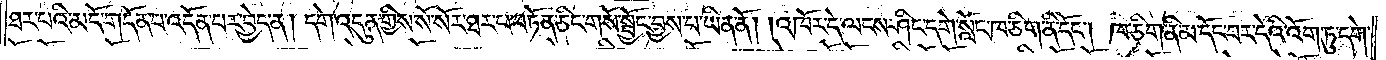ཐར་པའི་མདོ་གདོན་པ་འདོན་པར་བྱེད་ན། དགེ་འདུན་གྱིས་སོ་སོར་ཐར་པ་བཏོན་ཅིང་གསོ་སྦྱོང་བྱས་པ་ཡིན་ནོ། །འཁོར་དེ་ལངས་ཤིང་དགེ་སློང་ཁ་ཅིག་ནི་དོང༌། ཁ་ཅིག་ནི་མ་དོང་བར་དེའི་འོག་ཏུ་དགེ་
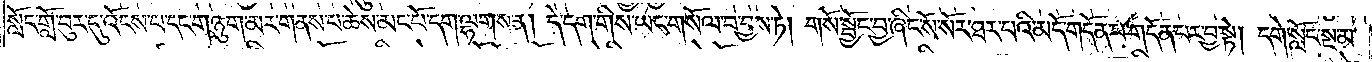སློང་གློ་བུར་དུ་འོངས་པ་དང་གཉུག་མར་གནས་པ་ཆེས་མང་པོ་དག་ལྷགས་ན། དེ་དག་གིས་ཡང་གསོལ་བ་བྱས་ཏེ། གསོ་སྦྱོང་བྱ་ཞིང་སོ་སོར་ཐར་པའི་མདོ་གདོན་པ་གདོན་པར་བྱ་སྟེ། དགེ་སློང་སྔ་མ་
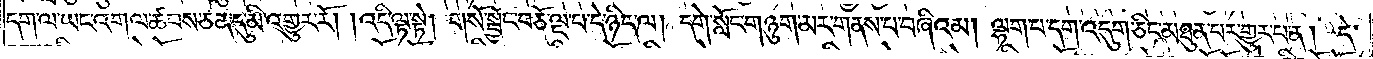དག་ལ་ཡང་འགལ་ཚབས་ཅན་དུ་མི་འགྱུར་རོ། །འདི་ལྟ་སྟེ། གསོ་སྦྱོང་བཅོ་ལྔ་པ་དེ་ཉིད་ལ། དགེ་སློང་གཉུག་མར་གནས་པ་བཞིའམ། ལྷག་པ་དག་འདུག་ཅིང་མཐུན་པར་གྱུར་པ་ན། དེ་
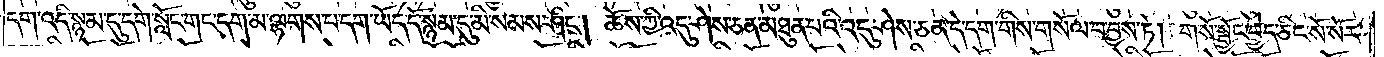དག་འདི་སྙམ་དུ་དགེ་སློང་གང་དག་མ་ལྷགས་པ་དག་ཡོད་དོ་སྙམ་དུ་མི་སེམས་ཤིང༌། ཆོས་ཀྱི་འདུ་ཤེས་ཅན་མཐུན་པའི་འདུ་ཤེས་ཅན་དེ་དག་གིས་གསོལ་བ་བྱས་ཏེ། གསོ་སྦྱོང་བྱེད་ཅིང་སོ་སོར་
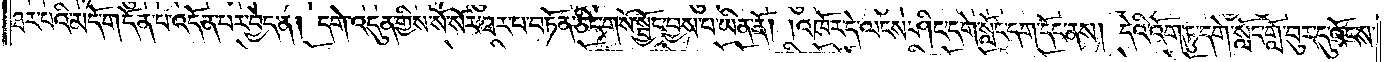ཐར་པའི་མདོ་གདོན་པ་འདོན་པར་བྱེད་ན། དགེ་འདུན་གྱིས་སོ་སོར་ཐར་པ་བཏོན་ཅིང་གསོ་སྦྱོང་བྱས་པ་ཡིན་ནོ། །འཁོར་དེ་ལངས་ཤིང་དགེ་སློང་དག་དོང་ནས། དེའི་འོག་ཏུ་དགེ་སློང་གློ་བུར་དུ་འོངས་
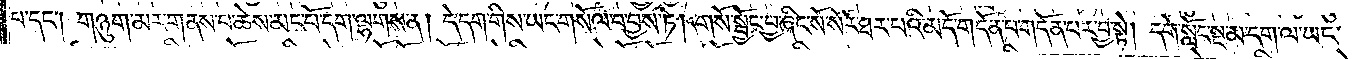པ་དང༌། གཉུག་མར་གནས་པ་ཆེས་མང་པོ་དག་ལྷགས་ན། དེ་དག་གིས་ཡང་གསོལ་བ་བྱས་ཏེ། གསོ་སྦྱོང་བྱ་ཞིང་སོ་སོར་ཐར་པའི་མདོ་གདོན་པ་གདོན་པར་བྱ་སྟེ། དགེ་སློང་སྔ་མ་དག་ལ་ཡང་
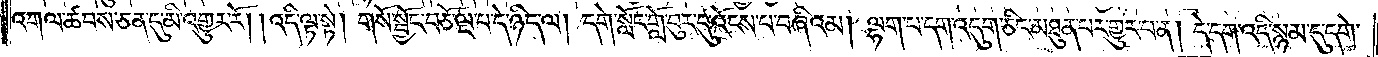འགལ་ཚབས་ཅན་དུ་མི་འགྱུར་རོ། །འདི་ལྟ་སྟེ། གསོ་སྦྱོང་བཅོ་ལྔ་པ་དེ་ཉིད་ལ། དགེ་སློང་གློ་བུར་དུ་འོངས་པ་བཞིའམ། ལྷག་པ་དག་འདུག་ཅིང་མཐུན་པར་གྱུར་པ་ན། དེ་དག་འདི་སྙམ་དུ་དགེ་
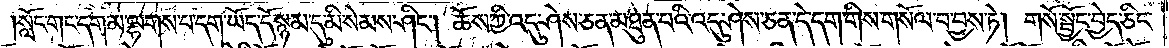སློང་གང་དག་མ་ལྷགས་པ་དག་ཡོད་དོ་སྙམ་དུ་མི་སེམས་ཤིང༌། ཆོས་ཀྱི་འདུ་ཤེས་ཅན་མཐུན་པའི་འདུ་ཤེས་ཅན་དེ་དག་གིས་གསོལ་བ་བྱས་ཏེ། གསོ་སྦྱོང་བྱེད་ཅིང་
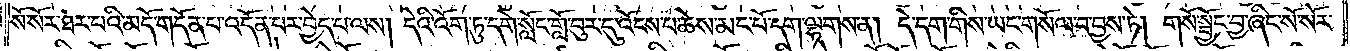སོ་སོར་ཐར་པའི་མདོ་གདོན་པ་འདོན་པར་བྱེད་པ་ལས། དེའི་འོག་ཏུ་དགེ་སློང་གློ་བུར་དུ་འོངས་པ་ཆེས་མང་པོ་དག་ལྷགས་ན། དེ་དག་གིས་ཡང་གསོལ་བ་བྱས་ཏེ། གསོ་སྦྱོང་བྱ་ཞིང་སོ་སོར་
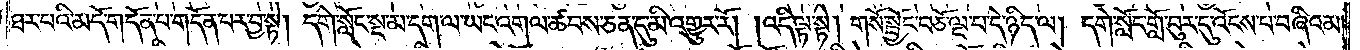ཐར་པའི་མདོ་གདོན་པ་གདོན་པར་བྱ་སྟེ། དགེ་སློང་སྔ་མ་དག་ལ་ཡང་འགལ་ཚབས་ཅན་དུ་མི་འགྱུར་རོ། །འདི་ལྟ་སྟེ། གསོ་སྦྱོང་བཅོ་ལྔ་བ་དེ་ཉིད་ལ། དགེ་སློང་གློ་བུར་དུ་འོངས་པ་བཞིའམ།
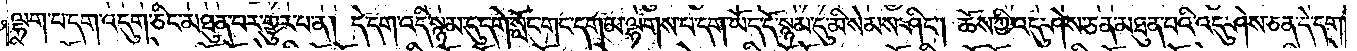ལྷག་པ་དག་འདུག་ཅིང་མཐུན་པར་གྱུར་པ་ན། དེ་དག་འདི་སྙམ་དུ་དགེ་སློང་གང་དག་མ་ལྷགས་པ་དག་ཡོད་དོ་སྙམ་དུ་མི་སེམས་ཤིང༌། ཆོས་ཀྱི་འདུ་ཤེས་ཅན་མཐུན་པའི་འདུ་ཤེས་ཅན་དེ་དག་
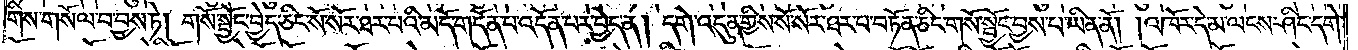གིས་གསོལ་བ་བྱས་ཏེ། གསོ་སྦྱོང་བྱེད་ཅིང་སོ་སོར་ཐར་པའི་མདོ་གདོན་པ་འདོན་པར་བྱེད་ན། དགེ་འདུན་གྱིས་སོ་སོར་ཐར་པ་བཏོན་ཅིང་གསོ་སྦྱོང་བྱས་པ་ཡིན་ནོ། །འཁོར་དེ་མ་ལངས་ཤིང་དགེ་
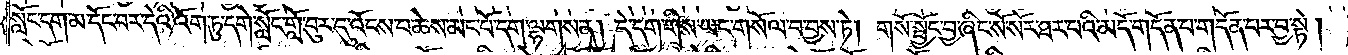སློང་དག་མ་དོང་བར་དེའི་འོག་ཏུ་དགེ་སློང་གློ་བུར་དུ་འོངས་པ་ཆེས་མང་པོ་དག་ལྷགས་ན། དེ་དག་གིས་ཡང་གསོལ་བ་བྱས་ཏེ། གསོ་སྦྱོང་བྱ་ཞིང་སོ་སོར་ཐར་པའི་མདོ་གདོན་པ་གདོན་པར་བྱ་སྟེ།
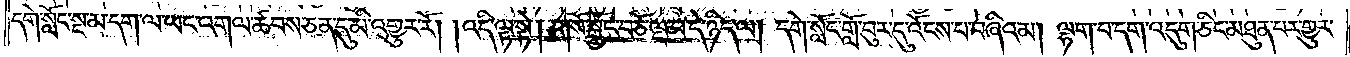དགེ་སློང་སྔ་མ་དག་ལ་ཡང་འགལ་ཚབས་ཅན་དུ་མི་འགྱུར་རོ། །འདི་ལྟ་སྟེ། གསོ་སྦྱོང་བཅོ་ལྔ་པ་དེ་ཉིད་ལ། དགེ་སློང་གློ་བུར་དུ་འོངས་པ་བཞིའམ། ལྷག་པ་དག་འདུག་ཅིང་མཐུན་པར་གྱུར་
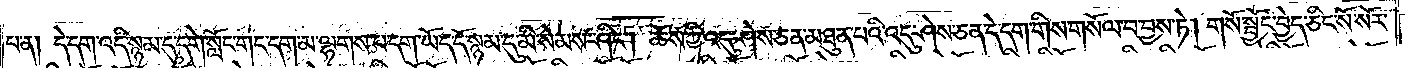པ་ན། དེ་དག་འདི་སྙམ་དུ་དགེ་སློང་གང་དག་མ་ལྷགས་པ་དག་ཡོད་དོ་སྙམ་དུ་མི་སེམས་ཤིང༌། ཆོས་ཀྱི་འདུ་ཤེས་ཅན་མཐུན་པའི་འདུ་ཤེས་ཅན་དེ་དག་གིས་གསོལ་བ་བྱས་ཏེ། གསོ་སྦྱོང་བྱེད་ཅིང་སོ་སོར་
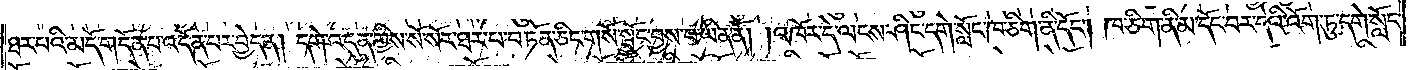ཐར་པའི་མདོ་གདོན་པ་འདོན་པར་བྱེད་ན། དགེ་འདུན་གྱིས་སོ་སོར་ཐར་པ་བཏོན་ཅིང་གསོ་སྦྱོང་བྱས་པ་ཡིན་ནོ། །འཁོར་དེ་ལངས་ཤིང་དགེ་སློང་ཁ་ཅིག་ནི་དོང༌། ཁ་ཅིག་ནི་མ་དོང་བར་དེའི་འོག་ཏུ་དགེ་སློང་
